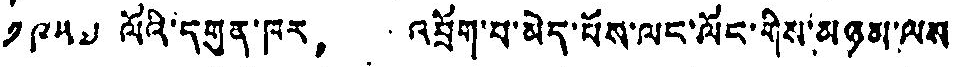༡༩༥༧ ལོའི་དགུན་ཁར， འབྲོག་པ་མེད་པོས་ལང་ལོང་གིས་མཉམ་ལས་
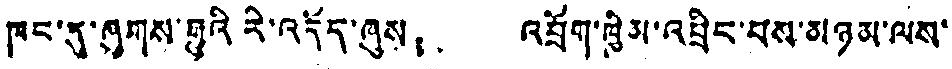ཁང་དུ་ཞུགས་རྒྱུའི རི་འདོད་ཞུས， འབྲོག་ཁྱིམ་འབྲིང་པས་མཉམ་ལས་
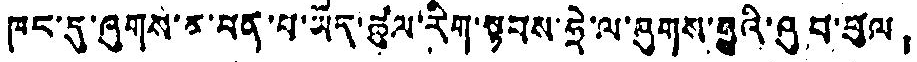ཁང་དུ་ཞུགས་མ་ཕན་པ་ཡོད་ཚུལ་རིག་སྟབས་ཧྲེ་ལ་ཞུགས་རྱུའི་ཞུ བ་ཕུལ，
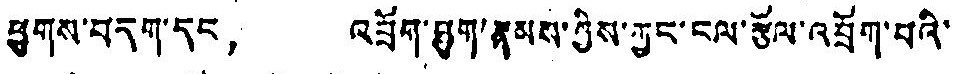ཕྱུགས་བདག་དང， འབྲོག་ཐུག་རྣམས་ཀྱིས་ཀྱང་ངལ་རྩོལ་འབྲོག་པའི་
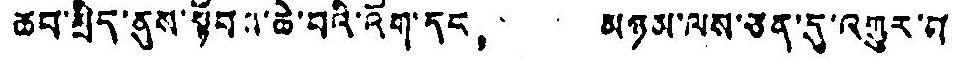ཆབ་སྲིད་ནུས་སྟོབས་ཆེ་བའི་འོག་དང， མཉམ་ལས་ཅན་དུ་འགྱུར་བ་
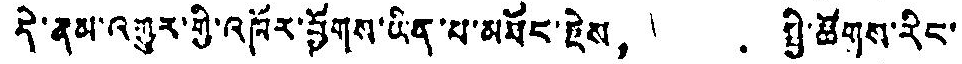དེ་རྣམ་འགྱུར་གྱི་འཁོར་ཕྱོགས་ཡིན་པ་མཐོང་རྗེས， སྤྱི་ཚོགས་རིང་
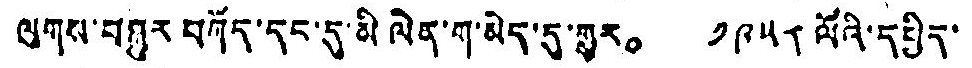ལུགས་བསྐུར བཀོད་དང་དུ་མི ལེན་ག་མེད་དུ་གྱུར。 ༡༩༥༨ ལོའི་དཔྱིད་
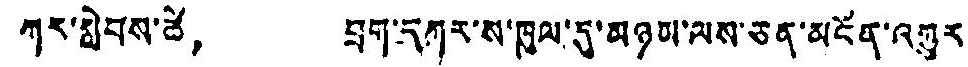ཀར་སླེབས་ཚེ， བྲག་དཀར་ས་ཁུལ་དུ་མཉམ་ལས་ཅན་མངོན་འགྱུར་
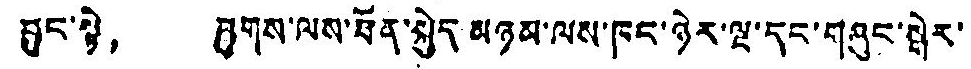བྱུང་སྟེ， ཞུགས་ལས་ཐོན་སྐྱེད མཉམ་ལས་ཁང་ཉེར་ལྔ་དང་གཞུང་སྒེར་
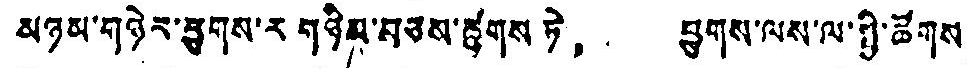མཉམ་གཉེར་ཕྱུགས་ར གཉིས་བཅས་ཚུགས ཏེ， ཕྱུགས་ལས་ལ་སྤྱི་ཚོགས་
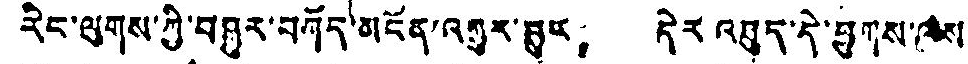རིང་ལུགས་ཀྱི་བསུར་བཀོད་མངོན་འགྱུར་བྱུར， དེར འཐུད་དེ་ཕྱུགས་ལས་
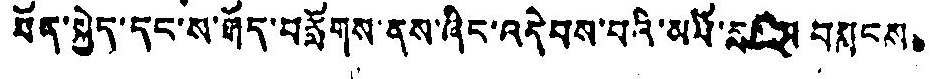ཐོན་སྐྱེད་དང་ས་རྒོད་བརློགས་ནས་ཞིང་འདེབས་པའི་མཐོ་རམ བསླངས。
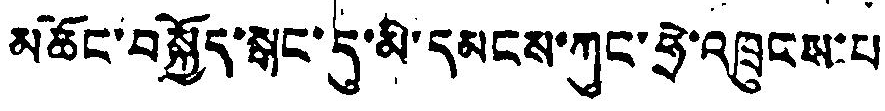མཆོང་བསྐྱོད་སྒང་དུ་མི་དམངས་ཀུང་ཧྲེ་འཁྲུངས་པ
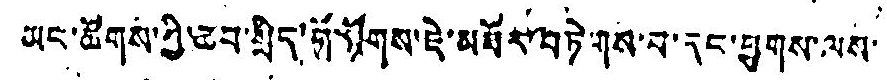མང་ཚོགས་ཀྱི་ཆབ་སྲིད་གོ་སྟོགས་ཇེ་མཐོར་བཏེགས་པ་དང་ཕྱུགས་ལས་
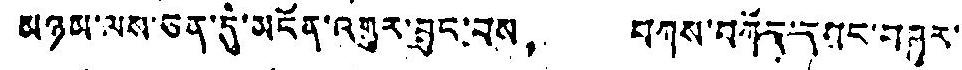མཉམ་ལས་ཅན་དུ་མངོན་འགྱུར་བྱུང་བས， བཀས་བཀོད་དབང་བཞར་
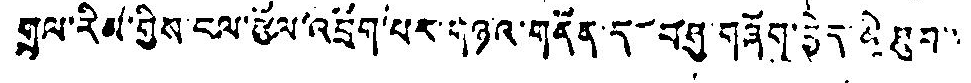གྲལ་རིམ་གྱིས་ངལ་རྩོལ་འབྲོག་པར་གཉའ་གནོན་ད་བཤུ གཞོག་བྱེད་མི་ཐུབ་་
